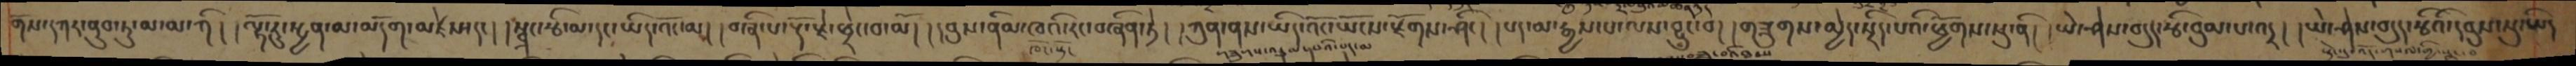གོས་དཀར་ནུབ་ཏུ་མ་མ་ཀི། །ལྷོ་རུ་སྤྱན་མ་མདོག་མཛེས་དང། །སྦྲང་རྩི་མ་དང་ཡིད་འོང་མ། །བཞི་པ་རྡོ་རྗེ་ཕྲེང་བ་མོ། །དབུས་ནིམ་ཁའི་རང་བཞིན་ཏེ། །ཀུན་ནས་ཡིད་འོང་ཡོངས་རྫོགས་ཤིང། །པད་མ་རྒྱས་པ་ལས་བྱུང་བ། །གཟུགས་མྱེད་སྲིད་པའི་ཕྱོགས་སུ་ནི། །ཡེ་ཤེས་བདུད་རྩི་བུམ་པ་འདྲ། །ཡེ་ཤེས་བདུད་རྩིའི་དབུས་སུ་ཡི།
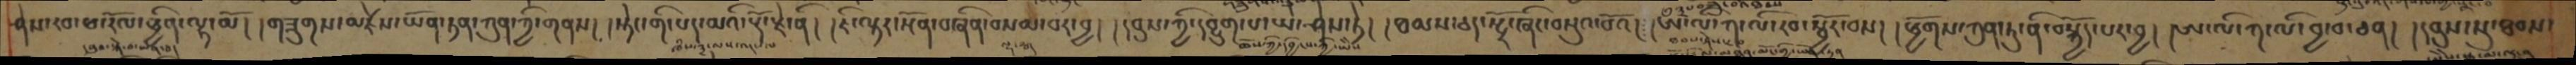ཤེས་རབ་ཕ་རོལ་ཕྱིན་ལྷ་མོ། །གཟུགས་མཛེས་ཡོན་ཏན་ཀུན་གྱི་གནས། །སྟེང་གི་པད་མའི་རྡོ་རྗེ་ནི། །ཇི་ལྟར་སྔོན་བཞིན་བསམ་བར་བྱ། །དབུས་ཀྱི་དབྱུག་པ་ཡེ་ཤེས་ཏེ། །ཐམས་ཅད་སྤྲོ་ཞིང་བསྡུའ་བའོ། །ཨ་ལི་ཀ་ལི་རབ་སྦྱོར་བས། །ཕྱོགས་ཀུན་ཏུ་ནི་བསྐྱོད་པར་བྱ། །ཨ་ལི་ཀ་ལི་བྱ་བ་ཅན། །དབུས་སུ་ཐབས་
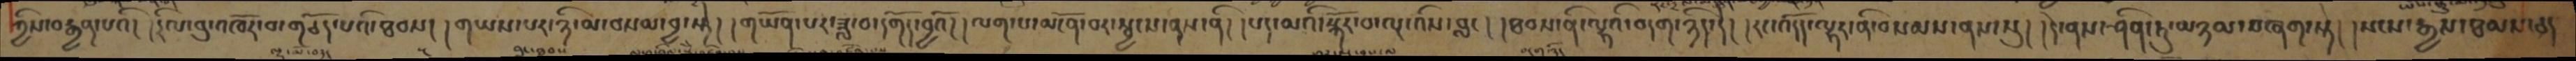ཀྱིས་བརྒྱན་པའི། །དྲིལ་བུ་འཁོར་བ་གཅོད་པའི་ཐབས། །གཡས་པར་ཉི་མ་བསམ་བྱ་སྟེ། །གཡོན་པར་ཟླ་བ་དགོད་བྱའོ། །ལག་པ་མངོན་བར་སྦྱངས་ནས་ནི། །པད་མའི་སྐོར་བ་ལྔ་འིས་བླང། །ཐབས་ནི་ལྷའི་བདག་ཉིད་དེ། །རང་འདོད་ལྷར་ནི་བསམས་ནས་སུ། །དེ་ནས་ཤིན་ཏུ་མཉམ་བཞག་སྟེ། །སངས་རྒྱས་ཐམས་ཅད
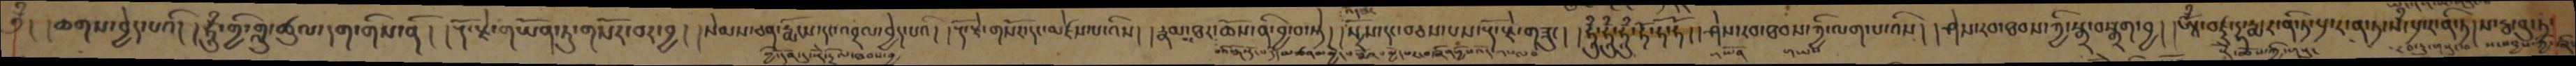༄ྃ། །ཆགས་བྱེད་པའི། །ཧཱུྃ་གྱི་གླུ་ཚུལ་དག་གིས་ནི། །རྡོ་རྗེ་གཡོན་ཏུ་གསོར་བར་བྱ། །སེམས་ཅན་རྨོངས་དང་འབྲལ་བྱེད་པའི། །རྡོ་རྗེ་གསོར་དང་མཛེས་པ་འིས། །རྣམ་ཐར་ཆོས་ནི་བྱ་བ་སྟེ། །སྤྲོས་དང་བཅས་པས་རྡོ་རྗེ་གཟུང། །ཧཱུྃ་ཧཱུྃ་ཧཱུྃ་ཧོ་ཧོ་ཧོ། །ཤེས་རབ་ཐབས་ཀྱི་ལག་པ་འིས། །ཤེས་རབ་ཐབས་ཀྱི་སྒྲ་བསྒྲག་བྱ། །ཨཱོྃ་བཛྲ་དྷ་རྨ་ར་ནི་ཏ་པྲ་ར་ན་ཏ་སྃ་པྲ་ར་ནི་ཏ། ས་རྦ་བུ་ཏ་
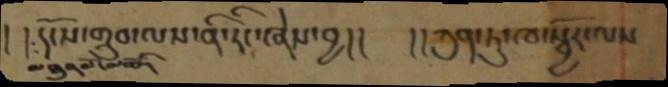། །དངོས་གྲུབ་ལས་ནི་རིང་ཞེས་བྱ།།   །།ཀུན་ཏུ་ཁ་སྦྱོར་ལས
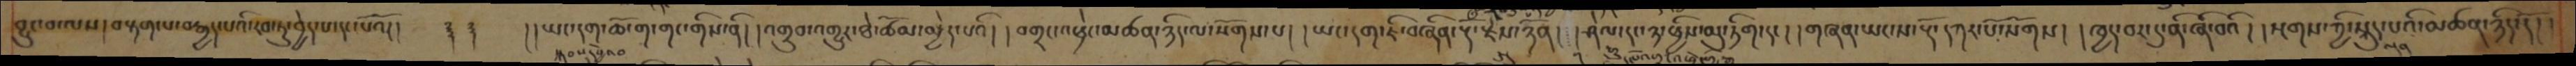བྱུང་བ་ལས། བརྟག་པ་བརྒྱད་པའི་རབ་ཏུ་བྱེད་པ་དང་པོའོ།།   ༈ ༈ །།ཡང་དག་ཆོ་ག་གང་གིས་ནི། །འགྲུབ་འགྱུར་ཐེ་ཚོམ་མྱེད་པའི། །བགྲང་འཕྲེང་མཚན་ཉིད་ལ་སོགས་པ། །ཡང་དག་ཇི་བཞིན་རྡོ་རྗེས་ཉོན། །ཤེལ་དང་ཉ་ཕྱིས་མུ་ཏིག་དང། །གཞན་ཡང་ས་རྡོ་དཀར་པོ་སོགས། །ཁྱད་པར་དུ་ནི་ཞི་བའི། །སྔགས་ཀྱི་སྐུད་པའི་མཚན་ཉིད་དོ། །
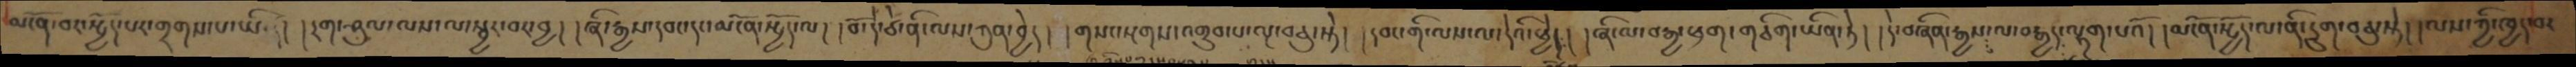མངོན་བར་སྤྱོད་པར་གྲགས་པ་ཡིན། །དྲག་ཤུལ་ལས་ལ་སྦྱར་བར་བྱ། །ཞི་རྒྱས་དབང་དང་མངོན་སྤྱོད་ལ། །བོ་དེ་ཙ་ནི་ལས་ཀུན་བྱེད། །གསང་སྔགས་འགྲུབ་པ་ལྔ་བཅུ་སྟེ། །དབང་གི་ལས་ལ་དེའི་ཕྱེད། །ཞི་མ་བརྒྱ་ཕྲག་གཅིག་ཡིན་ཏེ། །དེ་བཞིན་རྒྱས་ལ་བརྒྱད་ལྷག་པའོ། །མངོན་སྤྱོད་ལ་ནི་དྲུག་བཅུ་སྟེ། །ལས་ཀྱི་ཁྱད་པར
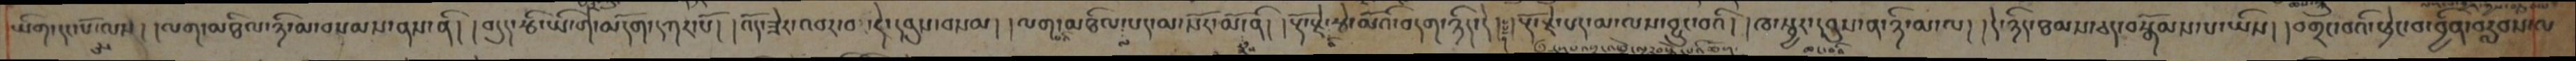ཡིག་དང་པོ་ལས། །ལག་མཐིལ་ཉི་མ་བསམས་ནས་ནི། །བདུད་རྩི་ཡི་གེ་མདོག་དཀར་པོ། །འོད་ཟེར་འབར་བ་དེ་དབུས་བསམ། །ལག་མཐིལ་པད་མ་སོར་མོ་ནི། །རྡོ་རྗེ་རྩེ་མོའི་བདག་ཉིད་དེ། ༈ །རྡོ་རྗེ་པད་མ་ལས་བྱུང་བའི། །ཁ་སྦྱར་དབུས་ན་ཉི་མ་ལ། །དེ་ཉིད་ཐམས་ཅད་བསྒོམ་པ་ཡིས། །བགྲོང་བའི་ཕྲེང་བ་བྱིན་བརླབས་ལ
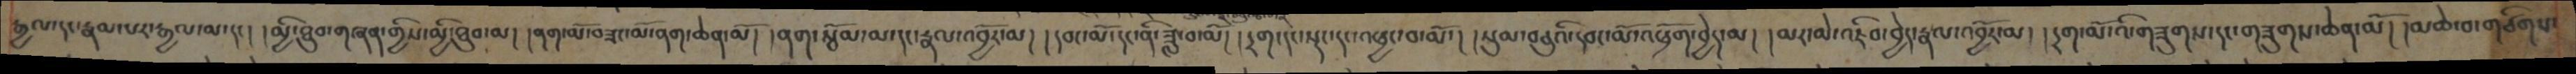རྒྱལ་དང་རྣམ་པར་རྒྱལ་མ་དང། །མྱི་ཐུབ་གཞན་གྱིས་མྱི་ཐུབ་མ། །ནག་མོ་བཟང་མོ་ནག་ཆེན་མོ། །ནག་སྦོམ་མ་དང་རྣལ་འབྱོར་མ། །དབང་མོ་དང་ནི་ཟླ་བ་མོ། །དྲག་དང་སྡང་དང་འཕྱང་བ་མོ་། །སུམ་བཅུའི་དབང་མོ་འཕྲོག་བྱེད་མ། །མར་མེ་འཇིབ་བྱེད་རྣལ་འབྱོར་མ། །དྲག་མོ་འི་གཟུགས་དང་གཟུགས་ཆེན་མོ། །མཆེ་བ་གཙིགས་
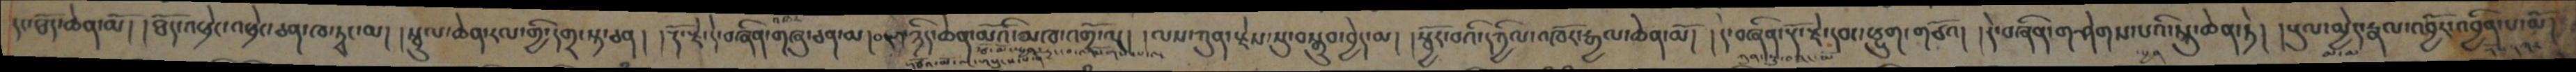དང་ཐོད་ཆེན་མོ། །ཐོད་འཕྲེང་འཕྲེང་ཅན་ཁ་ཏྭང་མ། །སྦྲུལ་ཆེན་རལ་གྱི་དགྲ་སྟ་ཅན། །རྡོ་རྗེ་དེ་བཞིན་གཞུ་ཅན་མ། །བདག་ཉིད་ཆེན་མོའི་མཁ་འགྲོ་ལྔ། །ལས་ཀུན་རྫེས་སུ་བསྒྲུབ་བྱེད་མ། །སྦྱོར་བའི་དཀྱིལ་འཁོར་རྒྱལ་ཆེན་མོ། །དེ་བཞིན་རྡོ་རྗེ་དབང་ཕྱུག་གཙོའ། །དེ་བཞིན་གཤེགས་པའི་སྐུ་ཆེན་ཏེ། །སུལ་མྱེད་རྣལ་འབྱོར་འབྱིན་པ་མོ།
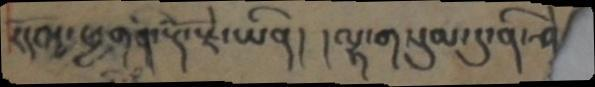རོདབང་ཕྱག་ནི་རྡོ་རྗེ་ཡིན། །ལྷ་གསུམ་དུ་ནི་ཤེ
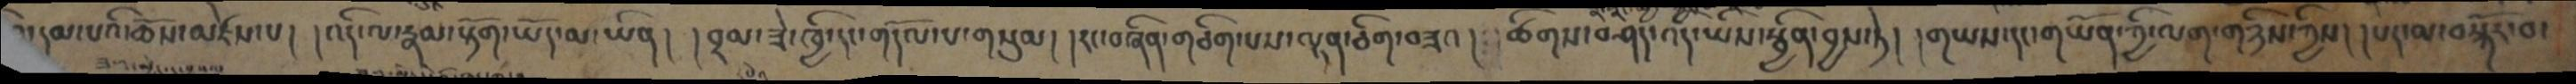དམ་པའི་ཆོས་མཛེས་པ། །འདི་ལ་རྣམ་རྟོག་ཡོད་མ་ཡིན། །བྲམ་ཟེ་ཁྱི་དང་གདོལ་པ་གསུམ། །རང་བཞིན་གཅིག་པས་ལྷན་ཅིག་བཟའ། ༴།ཚིགས་བཤད་འདི་ཡིས་སྦྱིན་བྱས་ཏེ། །གཡས་དང་གཡོན་ཀྱི་ལག་གཉིས་ཀྱིས། །པད་མ་བསྐོར་བ་
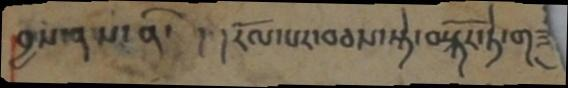བྱས་ནས་ནི་ ། ། རོལ་པར་བཅས་སྟེ་བསྐོར་ཏེ་གཟུ
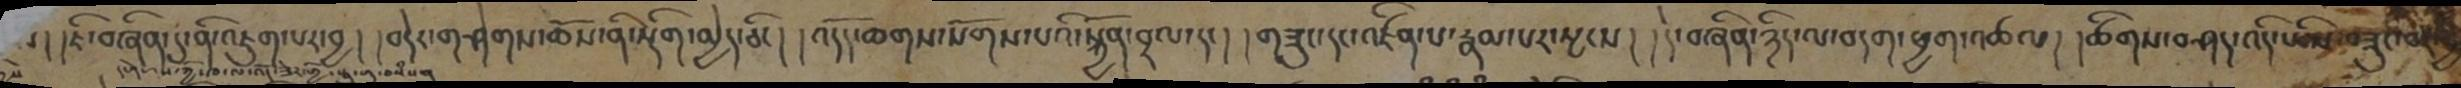། །ཇི་བཞིན་དུ་ནི་འཇུག་པར་བྱ། །བདེར་གཤེགས་ཆོས་ནི་རིག་མྱེད་ཅིང། །འདོད་ཆགས་སོགས་པའི་སྐྱོན་བྲལ་དང། །གཟུང་དང་འཛིན་པ་རྣམ་པར་སྤངས། །དེ་བཞིན་ཉིད་ལ་བདག་ཕྱག་འཚལ། །ཚིགས་བཤད་འདི་ཡིས་བཟུང་བར་བྱ
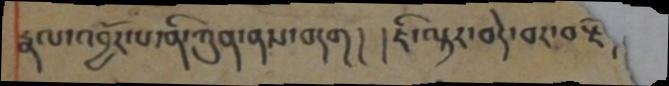རྣལ་འབྱོར་པ་ནི་ཀུན་ནས་བདག། །ཇི་ལྟར་བདེ་བར་བརྗོད།
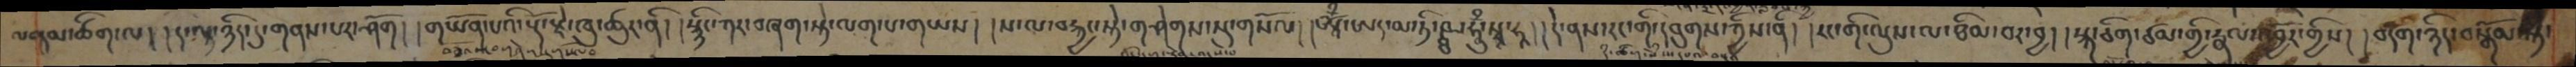ལ་དམ་ཚིག་ལ། །ད་ལྟ་ཉིད་དུ་གནས་པར་ཤོག། །གཡོན་པའི་རྡོ་རྗེ་ཁུ་ཚུར་ནི། །སྙིང་ཀར་བཞག་སྟེ་ལག་པ་གཡས། །ས་ལ་བརྐྱང་སྟེ་གཤེགས་སུ་གསོལ། །ཨཱོྃ་ཨད་མ་ཏི་ཥྛ་ཧཱུྃ་སྭཱ་ཧཱ། །དེ་ནས་རང་གི་དབུགས་ཀྱིས་ནི། །རང་གི་ལུས་ལ་ཐིམ་བར་བྱ། །སྐ་ཅིག་ཙམ་གྱི་རྣལ་འབྱོར་གྱིས། །བདག་ཉིད་བསྒོམ་སྟེ
